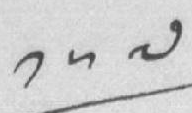༡༥༧
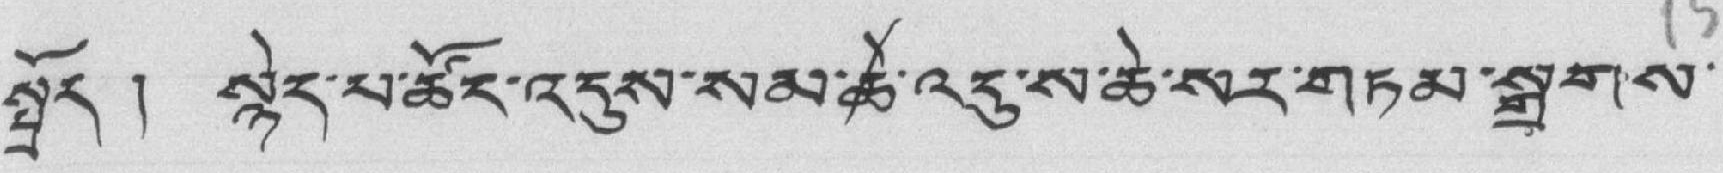སྤྱོད ། སྙེད་པ་ཚོང་འདུས་སམ་ཚེ་འདུ་ས་ཆེ་སར་གཏམ་སྒྲགས་
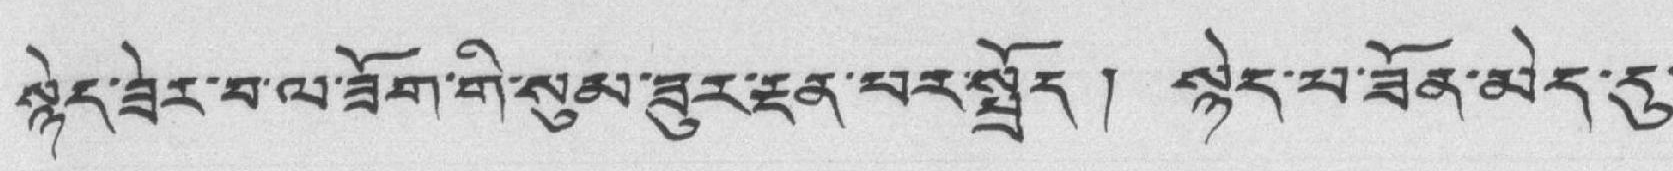སྙེད་ཟེར་བ་ལ་ཟོག་གི་སུམ་ཟུར་རྔན་པར་སྤྲོད ། སྙེད་པ་ཟོན་མེད་དུ་
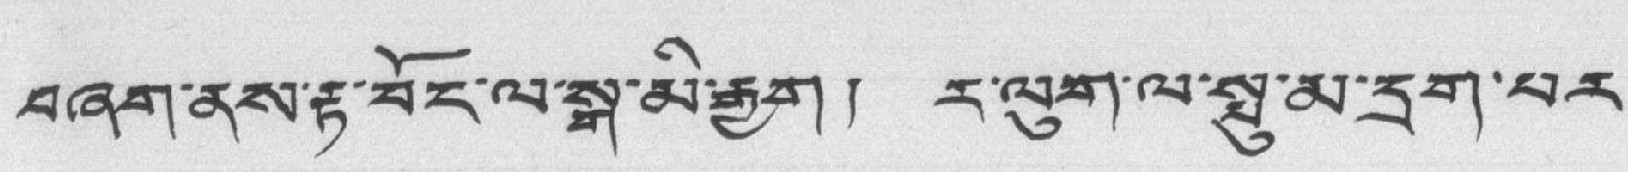བཞག་ནས་རྟ་བོང་ལ་སྒ་མི་རྒྱག ། ར་ལུག་ལ་སྤུ་མ་དྲག་པར་
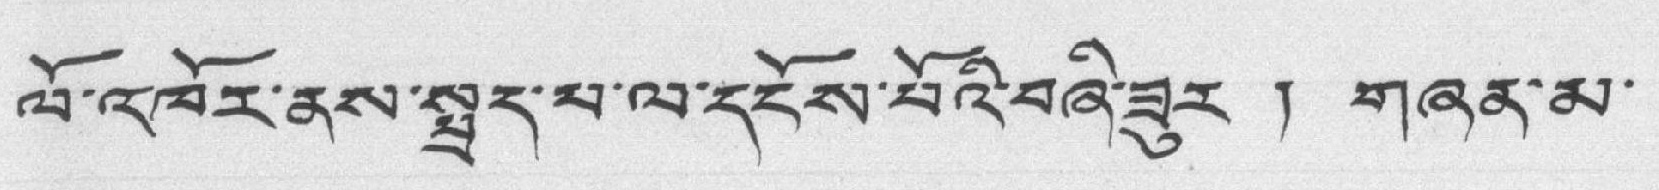ལོ་འཁོར་ནས་སྤྲད་པ་ལ་དངོས་པོའི་བཞི་ཟུར ། གཞན་མ་
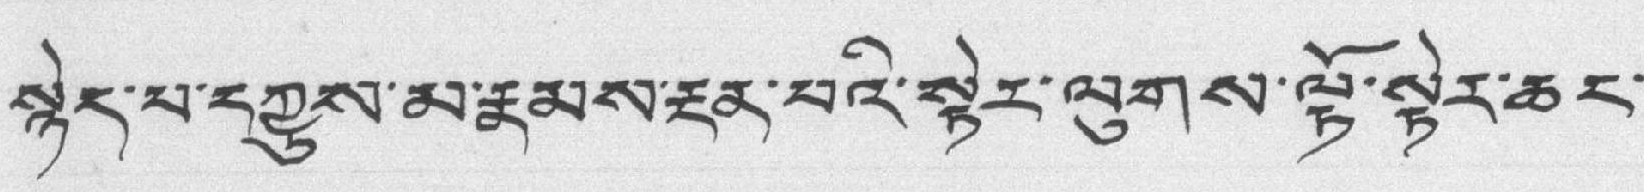སྐྱེད་པ་དཀྱུས་མ་རྣམས་རྔན་པའི་སྟེར་ལུགས་ལྟོ་སྟེར་ཆང་
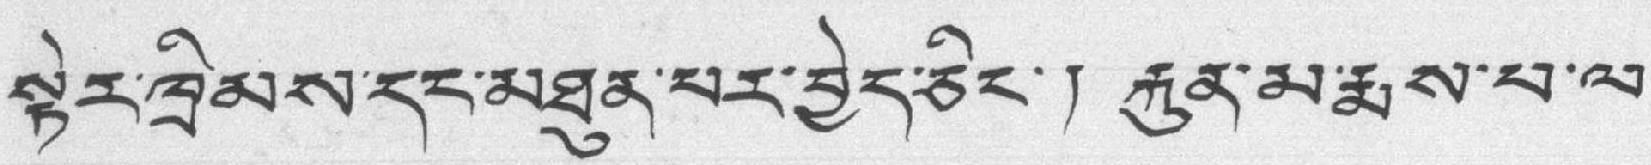སྟེར་ཁྲིམས་དང་མཐུན་པར་བྱེད་ཅིང་། རྐུན་མ་རྨས་པ་ལ་
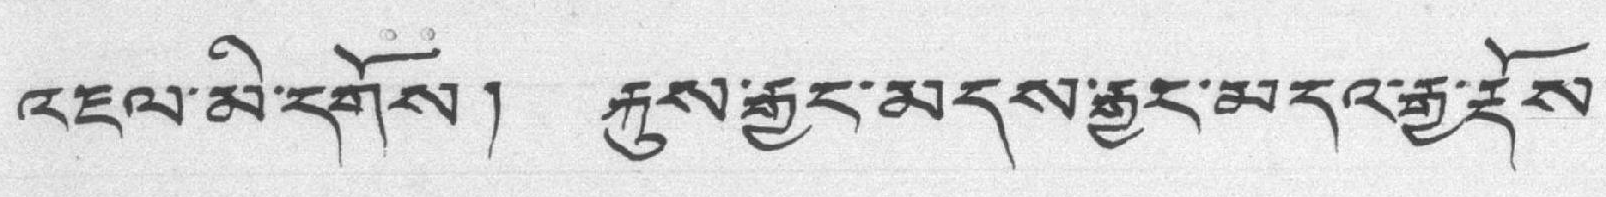འཇལ་མི་དགོས། རྐུས་རྒྱང་མདས་རྒྱང་མདའ་རྒྱ་རྡོས་
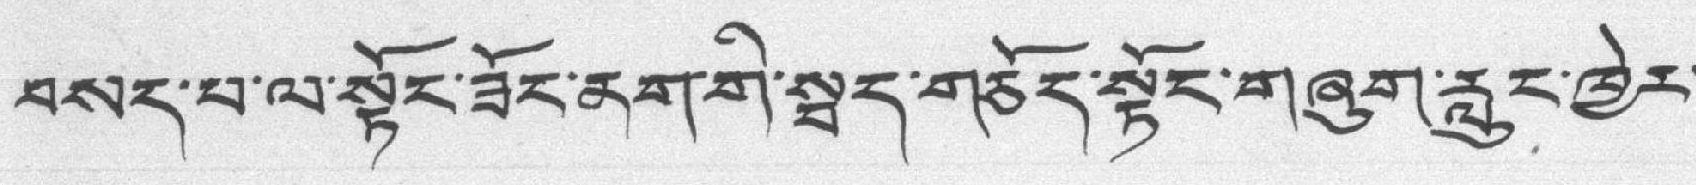བསད་པ་ལ་སྟོང་ཟོང་ནག་གི་སྦད་གཅོད་སྟོང་གཞུག་རླུང་ཁྱེར་
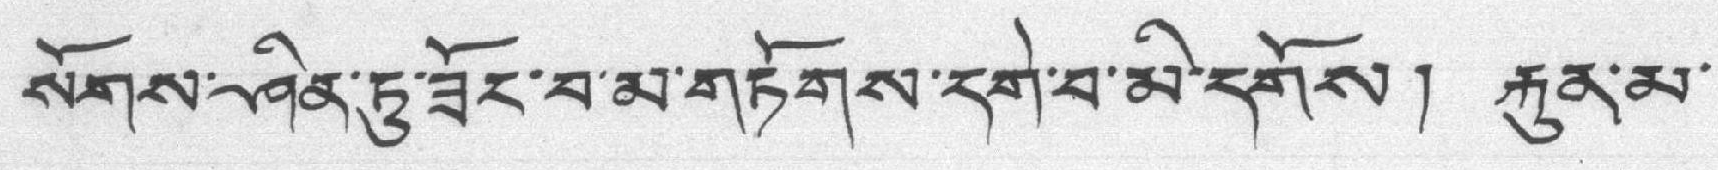སོགས་ཤིན་ཏུ་ཟོང་བ་མ་གཏོགས་དགེ་བ་མི་དགོས། རྐུན་མ་
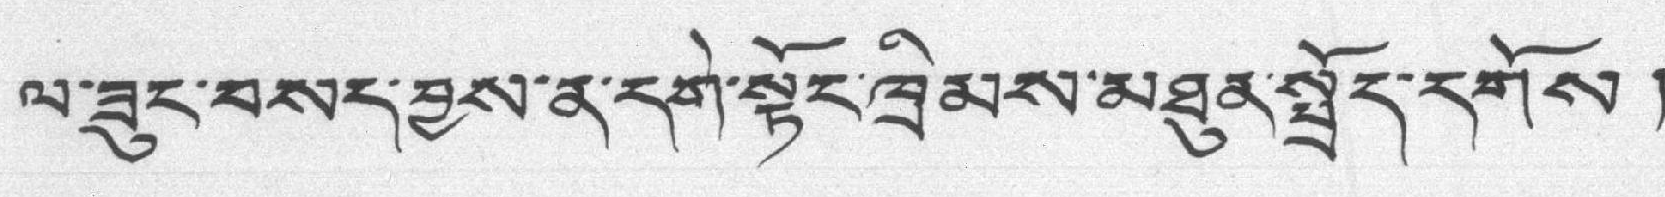ལ་ཟུང་བསད་བྱས་ན་དགེ་སྟོང་ཁྲིམས་མཐུན་སྤྲོད་དགོས །
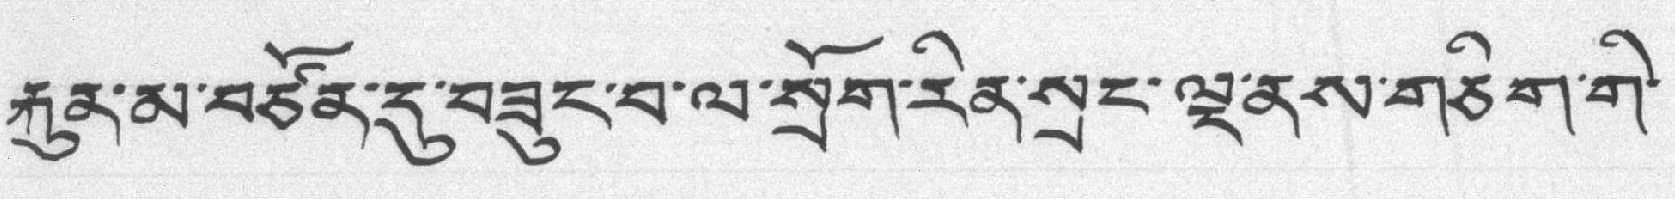རྐུན་མ་བཙོན་དུ་བཟུང་བ་ལ་སྲོག་རིན་སྲང་ལྔ་ནས་གཅིག་གི་
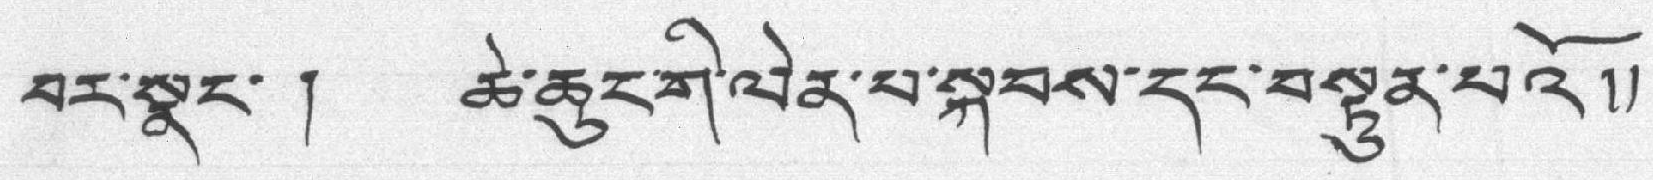བར་སྣང་ ། ཆེ་ཆུང་གི་ལེན་པ་སྐབས་དང་བསྟུན་པའོ།།
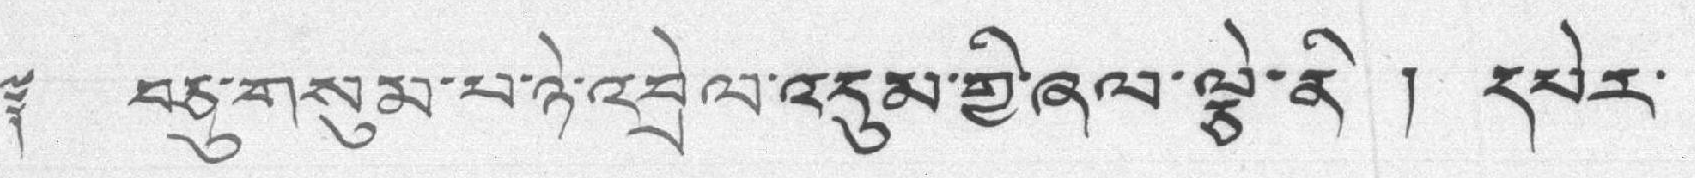༈ བཅུ་གསུམ་པ་ཉེ་འབྲེལ་འདུམ་གྱི་ཞལ་ལྕེ་ནི ། དཔེར་
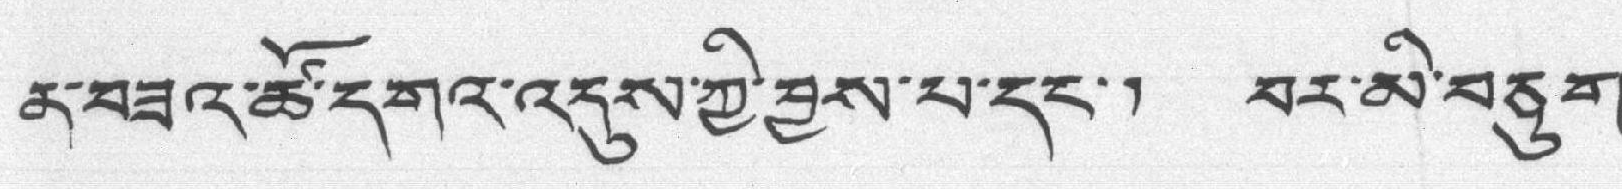ན་བཟའ་ཚོ་དགའ་འདུས་ཀྱི་བྱས་པ་དང་། བར་མི་བཅུག་
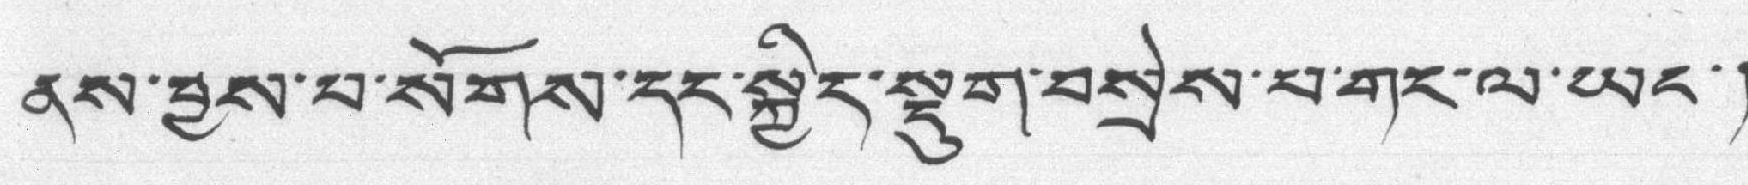ནས་བྱས་པ་སོགས་དང་སྐྱིད་སྡུག་བསྲེས་པ་གང་ལ་ཡང་།
